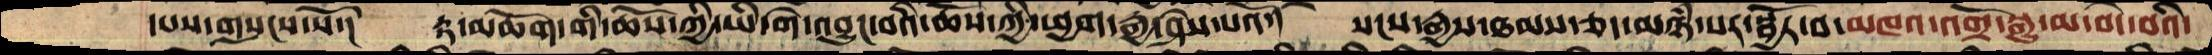དཔས་གསུངས་སོ་།  རྟ་མཆོག་གི་ཆོས་ཀྱི་ཡི་གེ་འབྱུང་བའི་ཆོས་ཀྱི་ཕྱག་རྒྱ་ཤེས་པའོ་།  སངས་རྒྱས་ཐམས་ཅད་མཉཾ་པར་སྦྱོར་བ་མཁའ་འགྲོ་སྒྱུ་མ་བདེ་བའི་
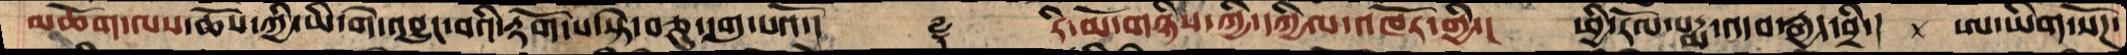མཆོག་ལས་ཆོས་ཀྱི་ཡི་གེ་འབྱུང་བའི་རྟོག་པ་སྟེ་བཅུ་དགུ་པའོ་།   ༈  རི་མོ་གཉིས་ཀྱི་དཀྱིལ་འཁོར་གྱི་། ཕྱི་རོལ་པདྨ་འདབ་རྒྱད་བྲི་། ཨ་ཡིག་སོཌ་
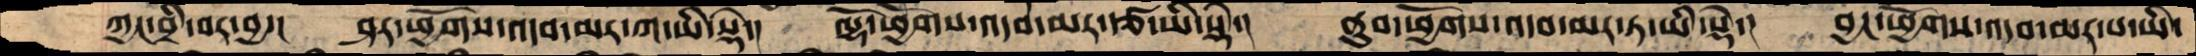ཀྱང་བྲི་བར་བྱ་།  ཤར་ཕྱོགས་འདབ་མར་ཀ་ཡི་སྡེ་།  ལྷོ་ཕྱོགས་འདབ་མར་རྩ་ཡི་སྡེ་།  ནུབ་ཕྱོགས་འདབ་མར་ཏ་ཡི་སྡེ་།  བྱང་ཕྱོགས་འདབ་མར་པ་ཡི་
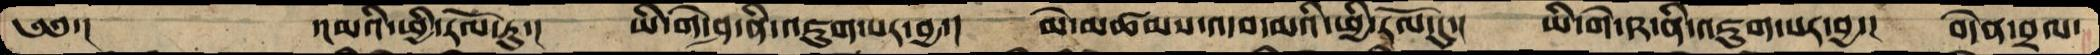༄༅་།   ་།མའི་ཕྱི་རོལ་ཏུ་།  ཡི་གེ་ཤ་ནི་འཇུག་པར་བྱ་།  མེ་མཚམས་འདབ་མའི་ཕྱི་རོལ་དུ་།  ཡི་གེ་ཥ་ནི་འཇུག་པར་བྱ་།  བདེན་བྲལ་
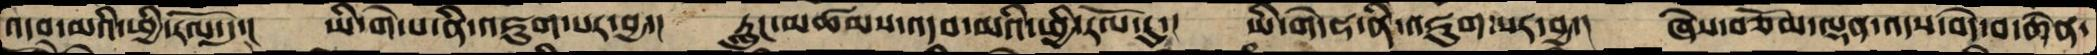འདབ་མའི་ཕྱི་རོལ་དུ་།  ཡི་གེ་པ་ནི་འཇུག་པར་བྱ་།  རླུང་མཚམས་འདབ་མའི་ཕྱི་རོལ་དུ་།  ཡི་གེ་ཧ་ནི་འཇུག་པར་བྱ་།  ཞེས་བཅོམ་ལྡན་འདས་བདེ་བ་ཆེན་
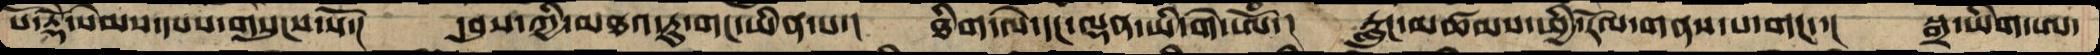པོ་རྡོེ་སེམས་དཔས་གསུངས་སོ་།  དབུས་ཀྱི་མཐའ་རུ་གང་ཡིན་པ་།  ཐིག་ལེ་དང་ལྡན་ཡི་གེ་ཨོཾ་།  རླུང་མཚམས་ཕྱི་རོལ་གནས་པ་གང་་།  སྒྲ་ཡིག་ཨ་
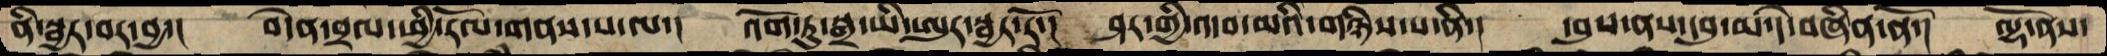ནི་སྦྱར་བར་བྱ་།  བདེན་བྲལ་ཕྱི་རོལ་གནས་པ་ལ་།  འོག་ཏུ་སྒྲ་ཡི་ཨུར་སྦྱར་རོ་།  ཤར་གྱི་འདབ་མའི་གཉིས་པ་ནི་།  དབུས་ནས་དབུ་མ་དེ་བཞིན་ནོ་། ལྷོ་ནས་
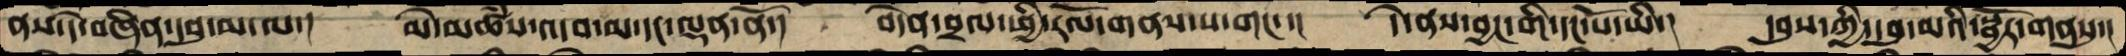ནས་དེ་བཞིན་དབུ་མ་ལ་།  མེ་མཚཾས་འདབ་མ་དང་ལྡན་ནོ་།  བདེན་བྲལ་ཕྱི་རོལ་གནས་པ་གང་་།  དེ་ནས་བྱང་གི་དང་པོ་ཡི་།  དབུས་ཀྱི་དབུ་མའི་སྦྱོར་གནསུ་།
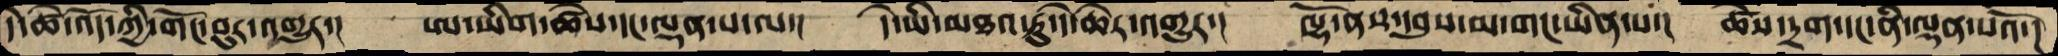དེ་ཚེ་འདོ་ཀྱི་གོང་བུར་འགྱུར་།  ཨ་ཡིག་ཚེས་དང་ལྡན་པ་ལ་།  དེ་ཡི་མཐའ་རུ་དེ་ཆེར་འགྱུར་།  ལྷོ་ནས་དབུས་མ་གང་ཡིན་པ་།  ཚེས་དྲག་དང་ནི་ལྡན་པའོ་།
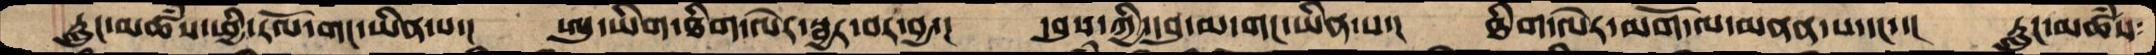རླུང་མཚཾས་ཕྱི་རོལ་གང་ཡིན་པ་།  ཨུ་ཡིག་ཐིག་ལེར་སྦྱར་བར་བྱ་།  དབུས་ཀྱི་དབུ་མ་གང་ཡིན་པ་།  ཐིག་ལེར་མགོ་ལ་མནན་པ་དང་་།  རླུང་མཚཾས་
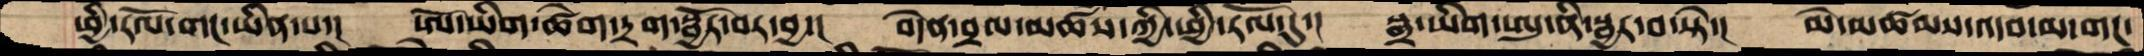ཕྱི་རོལ་གང་ཡིན་པ་།  ཨོ་ཡིག་ཚེག་དྲག་སྦྱོར་བར་བྱ་།  བདེན་བྲལ་མཚས་ཀྱི་ཕྱི་རོལ་དུ་།  སྒྲ་ཡིག་ཨུ་ནི་སྦྱར་བ་སྟེ་། མེ་མཚམས་འདབ་མ་གང་
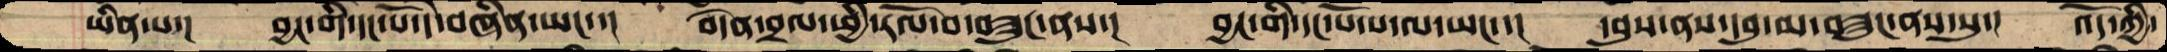ཡིན་པ་།  བྱང་གི་དང་པོ་དེ་བཞིན་ཡང་་།  བདེན་བྲལ་ཕྱི་རོལ་བ་བཟུང་ནས་།  བྱང་གི་དང་པོ་ས་ལ་ཡང་་།  དབུས་ནས་དབུ་མ་བཟུང་ནས་སུ་།  འོད་ཀྱི་
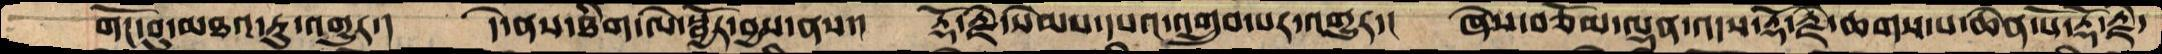གོང་བུ་མཐའ་རུ་འགྱུར་།  དེ་ནས་ཐིག་ལེ་སྦྱོར་བྱས་ནས་།  རྡོ་རྗེ་སེམས་དཔའ་འགྲུབ་པར་འགྱུར་།  ཞེས་བཅོམ་ལྡན་འདས་རྡོ་རྗེ་ཆགས་པ་ཆེན་པོ་རྡོ་རྗེ་
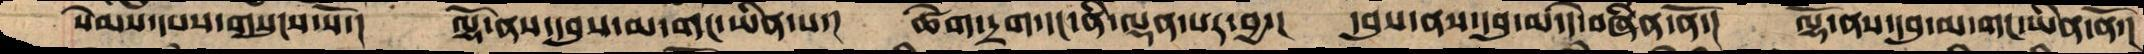སེམས་དཔས་གསུངས་སོ་།  ལྷོ་ནས་དབུས་མ་གང་ཡིན་པ་།  ཚེག་དྲག་དང་ནི་ལྡན་པར་བྱ་།  དབུས་ནས་དབུ་མ་དེ་བཞིན་ནོ་།  ལྷོ་ནས་དབུ་མ་གང་ཡིན་ནོ་།
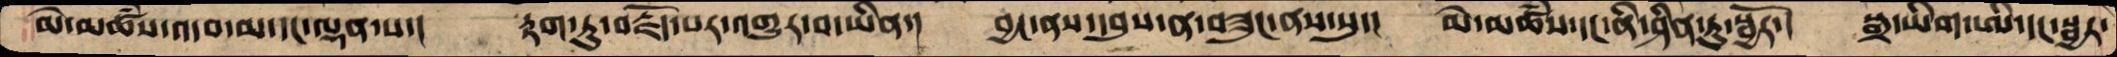མེ་མཚཾས་འདབ་མ་དང་ལྡན་པ་།  རྟག་ཏུ་བརྗོད་པར་འགྱུར་བ་ཡིན་།  བྱང་ནས་དབུས་ནབཟུང་ནས་སུ་།  མེ་མཚཾས་དང་ནི་ཤིན་ཏུ་སྦྱོར་།  སྒྲ་ཡིག་ཨི་དང་སྦྱར་
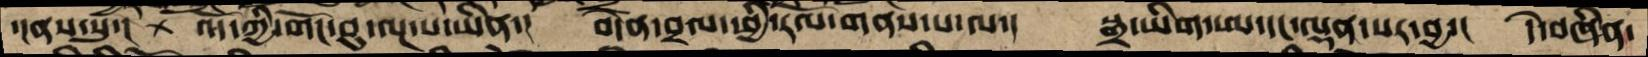་།ནས་སུ་། འོད་ཀྱི་གོང་བུ་ལྔ་པ་ཡིན་། བདེན་བྲལ་ཕྱི་རོལ་གནས་པ་ལ་། སྒྲ་ཡིག་ཨ་དང་ལྡན་པར་བྱ་། དེ་བཞིན་
